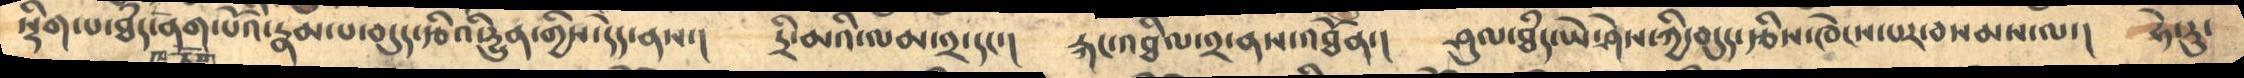སྡིག་པ་ཐཾད་ནག་པོའི་རྣམ་པ་བདུད་རྩིའི་དྱུན་གྱིས་དེད་ནས་།    དྲི་མའི་ལམ་༢་དང་།     རྐང་འཐིལ་༢་ནས་འཐོན་།   ཤུལ་ཐཾད་ཡེ་ཤེས་ཀྱི་བདུད་རྩིས་ཁེངས་པར་བསམས་ལ་།  ཧེ་རུ་
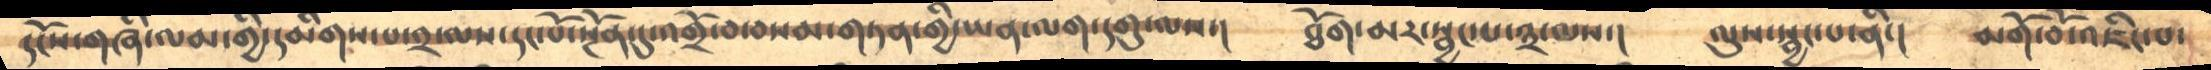དངོས་གཞི་ལམ་གྱི་དམིགས་པ་༢་ལས་དང་པོ་སྔོན་དུ་འགྲོ་བ་བསམ་གཏན་གྱི་ཡན་ལག་དགུ་ལས་།      ཐོག་མར་སྦྱང་པ་༣་ལས་།     ལུས་སྦྱང་པ་ནི་།     མགོ་བོ་འཇིང་པ་
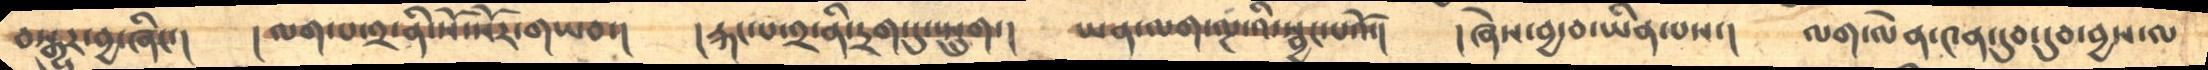བསྒྱུར་བྱ་ཞིང་།      །ལག་པ་༢་ནི་སོ་སོར་གཡབ་།      །རྐང་པ་༢་ནི་དྲག་དུ་སྤྲུག་།     ཡན་ལག་ལྔ་འི་སྦྱང་པའོ་།   །ཞེས་བྱ་བ་ཡིན་པས་།    ལག་ལེན་༤ན་དུབ་དུབ་བྱས་ལ
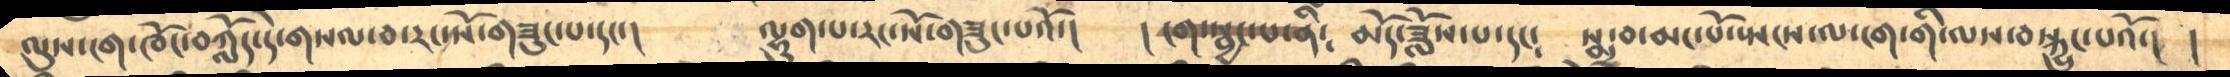ལུས་ངག་ཁོང་བཀློད་དེ་གསལ་བ་རང་སོ་གཟུང་པ་དང་།         ལྷུག་པ་རང་སོ་གཟུང་པའོ་།      །ངག་སྦྱང་པ་ནི༴    མདོ་ཟློས་པ་དང༴   སྨྲ་བ་མང་པོ་སྤངས་ལ་ངག་གི་ལས་བསྐྱུང་པའོ་།  །
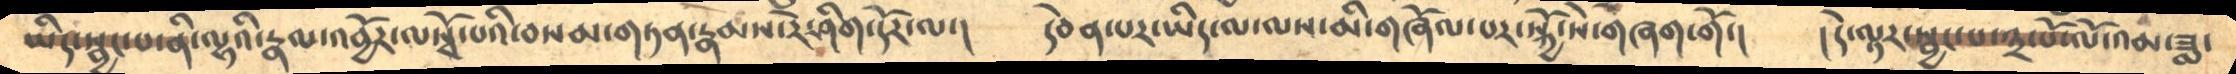ཡིད་སྦྱང་པ་ནི་ལྷའི་རྣལ་འབྱོར་ལསྭོ་པའི་བསམ་གཏན་རྣམས་རེ་ཤིག་དོར་ལ་།    དབེན་པར་ཡིད་ལ་ལས་མི་གཞོལ་པར་སྐྱེ་སེ་གཞག་གོ་།     །དེ་ལྟར་སྦྱང་པ་༣་པོ་ལོ་འམ་ཟླ་
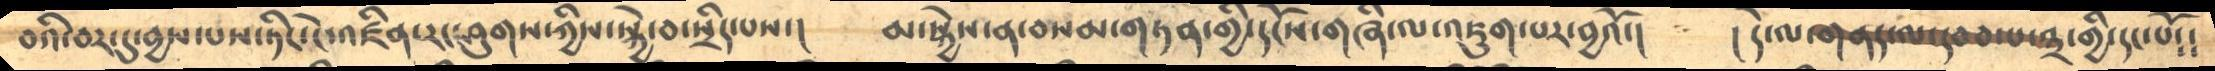བའི་བར་དུ་བྱས་པས་ཏིང་ངེ་འཛིན་རང་ཤུགས་ཀྱིས་སྐྱེ་བ་སྲིད་པས་།     མ་སྐྱེས་ན་བསམ་གཏན་གྱི་དངོས་གཞི་ལ་འཇུག་པར་བྱའོ་།    །དེ་ལ་གནད་ལ་དབབ་པ་༣་གྱི་དང་པོ༴༴
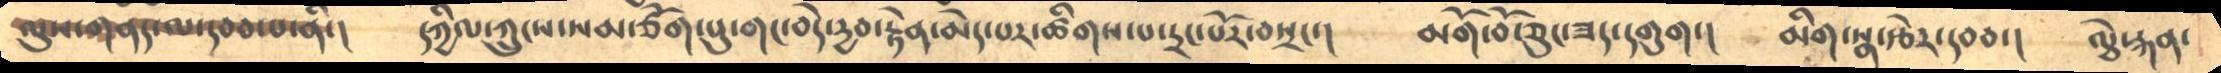ལུས་གནད་ལ་དབབ་པ་ནི་།    དཀྱིལ་ཀྲུངས་སམ་ཙོག་པུ་གང་བདེ་དྱབ་རྟེན་མེད་པར་ཚིགས་པ་དྲང་པོར་བསྲང་།    མགོ་བོ་ཅུང་ཟད་དགུག་།   མིག་སྣ་རྩེར་དབབ་།   ལྕེ་རྐན་
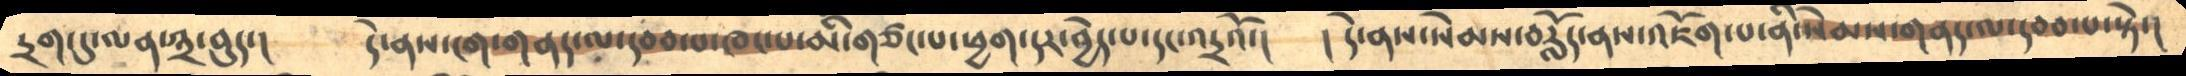དྲག་དུ་ལན་༣་བུད་།     དེ་ནས་ངག་གནད་ལ་དབབ་པ་ཁང་པ་མི་གཙང་པ་ཕྱག་དར་བྱེད་པ་དང་འདྲའོ་།     ། དེ་ནས་སེམས་བརློད་ནས་འཇོག་པ་ནི་སེམས་གནད་ལ་དབབ་པ་སྟེ་།
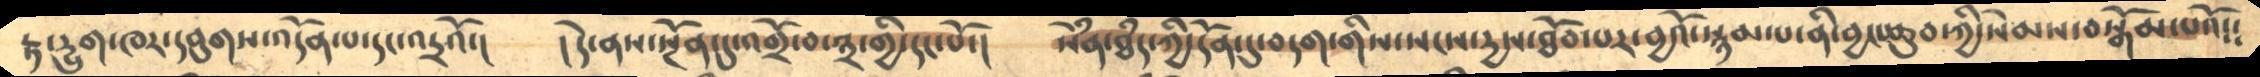རྟ་དྱུག་ཁར་དབུགས་འདོན་པ་དང་འདྲའོ་།     །དེ་ནས་སྔོན་དུ་འགྲོ་བ་༣་གྱི་དང་པོ་།    སེཾན་ཐཾད་ཀྱི་དོན་དུ་བདག་གིས་སངས་དྱས་ཐོབ་པར་བྱའོ་སྙམ་པ་ནི་བྱང་ཆུབ་ཀྱི་སེམས་བསྒོམ་པའོ༴༴
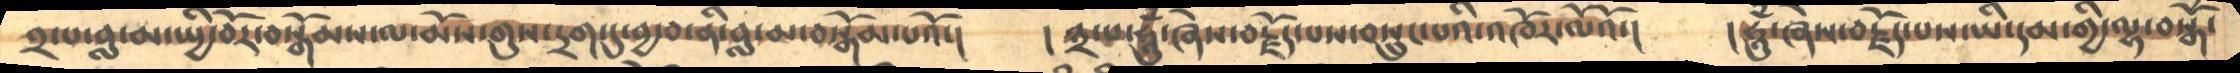༢་པ་བླ་མ་སྤྱི་བོར་བསྒོམས་ལ་མོས་གུས་དྲག་དུ་བྱ་བ་ནི་བླ་མ་བསྒོམ་པའོ་།     །༣་པ་ཧཱུཾ་ཞེས་བརྗོད་པས་བསྲུང་པའི་འཁོར་ལོའོ་།    །ཧཱུཾ་ཞེས་བརྗོད་པས་ཡི་དམ་གྱི་ལྷ་བསྒོཾ་
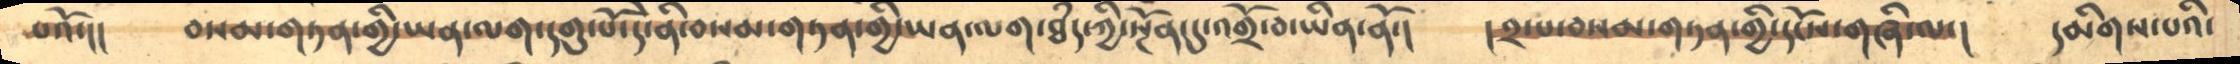པའོ་།།   བསམ་གཏན་གྱི་ཡན་ལག་དགུ་པོ་དེ་ནི་བསམ་གཏན་གྱི་ཡན་ལག་ཐཾད་ཀྱི་སྔོན་དུ་འགྲོ་བ་ཡིན་ནོ་།     །༢་པ་བསམ་གཏན་གྱི་དངོས་གཞི་ལ་།    དམིགས་པའི་
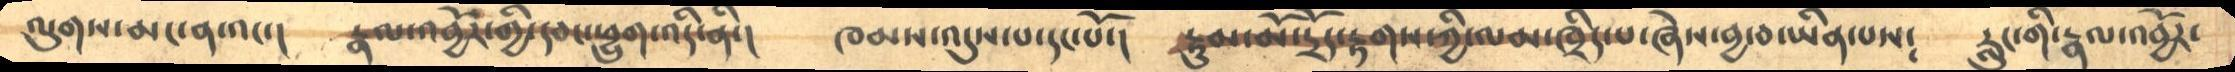ལུགས་མང་ན་འང་།      རྣལ་འབྱོར་གྱི་དབང་ཕྱུག་འདི་ནི་།    ཁམས་འདུས་པ་དང་པོ་།    རྟུམ་མོ་དྲོད་རྟགས་ཀྱི་ལམ་ཁྲིད་པ་ཞེས་བྱ་བ་ཡིན་པས༴    རླུང་གི་རྣལ་འབྱོར་
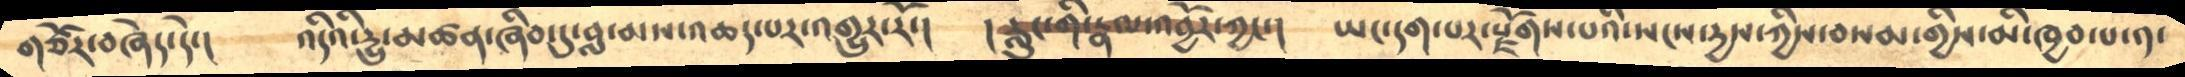གཙོར་བཞེད་དེ་།      འདིའི་དྱུ་མཚན་ཞིབ་དུ་བླ་མས་འཆད་པར་འགྱུར་རོ་།     །རླུང་གི་རྣལ་འབྱོར་ཀྱང་།    ཡང་དག་པར་རྫོགས་པའི་སངས་དྱས་ཀྱིས་བསམ་གྱིས་མི་ཁྱབ་པ་༡་
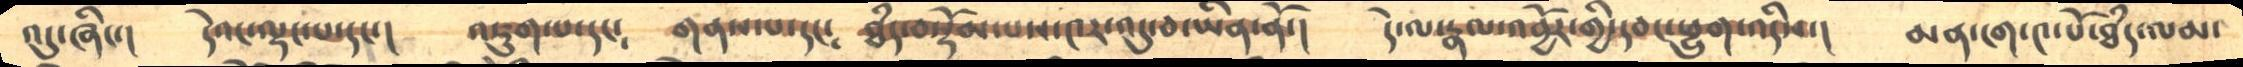འདུ་ཞིང་།       དེའང་ལྡང་པ་དང་།    འཇུག་པ་དང༴   གནས་པ་དང༴     ཐཾད་བསྡོམ་པས་༤ར་འདུ་བ་ཡིན་ནོ་།    དེ་ལ་རྣལ་འབྱོར་གྱི་དབང་ཕྱུག་འདིས་།    མན་ངག་༤་པོ་ཐཾད་ལམ་
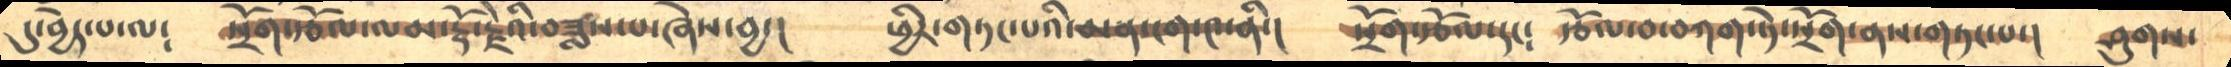དུ་བྱེད་པ་ལ༴     སྲོག་རྩོལ་ལམ་རྡོ་རྗེའི་བཟླས་པ་ཞེས་བྱ་།   ཕྱིར་གཏང་པའི་མན་ངག་༤་ནི་།    སྲོག་རྩོལ་དང༴   རྩོལ་བ་བཀག་ཏེ་སྲོག་ནས་གཏང་པ་།     ཤུགས་
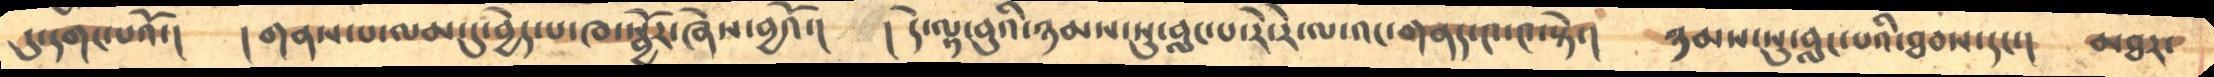དུ་དགང་པའོ་།     །གནས་པ་ལམ་དུ་བྱེད་པ་ཁ་སྦྱོར་ཞེས་བྱའོ་།    །དེ་ལྟ་བུའི་ཉམས་སུ་བླང་པ་རེ་རེ་ལ་འང་གནད་༤་༤་སྟེ་།    ཉམས་སུ་བླང་པའི་ཐབས་དང་།    མཐར་
